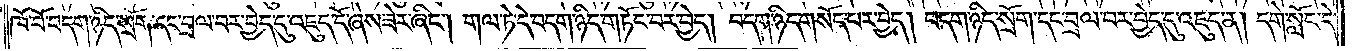ཁོ་བོ་བདག་ཉིད་སྲོག་དང་བྲལ་བར་བྱེད་དུ་འཇུད་དོ་ཞེས་ཟེར་ཞིང༌། གལ་ཏེ་དེ་བདག་ཉིད་གཏོང་བར་བྱེད། བདག་ཉིད་གསོད་པར་བྱེད། བདག་ཉིད་སྲོག་དང་བྲལ་བར་བྱེད་དུ་འཇུད་ན། དགེ་སློང་དེ་
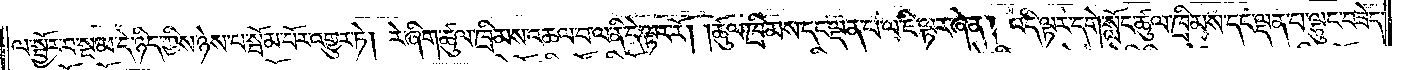ལ་སྦྱོར་བ་སྔ་མ་དེ་ཉིད་ཀྱིས་ཉེས་པ་སྦོམ་པོར་འགྱུར་ཏེ། རེ་ཞིག་ཚུལ་ཁྲིམས་འཆལ་བ་ལ་ནི་དེ་ལྟར་རོ། །ཚུལ་ཁྲིམས་དང་ལྡན་པ་ལ་ཇི་ལྟར་ཞེ་ན། འདི་ལྟར་དགེ་སློང་ཚུལ་ཁྲིམས་དང་ལྡན་པ་ལྷུང་བཟེད་
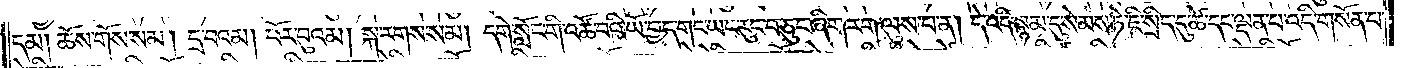དམ། ཆོས་གོས་སམ། དྲ་བའམ། ཕོར་བུའམ། སྐ་རགས་སམ། དགེ་སློང་གི་འཚོ་བའི་ཡོ་བྱད་གང་ཡང་རུང་བ་ཅུང་ཞིག་རག་ལུས་པ་ན། དེ་འདི་སྙམ་དུ་སེམས་ཏེ་ཇི་སྲིད་དུ་ཚེ་དང་ལྡན་པ་འདི་གསོན་པ་
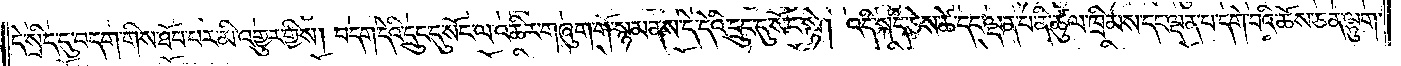དེ་སྲིད་དུ་བདག་གིས་ཐོབ་པར་མི་འགྱུར་གྱིས། བདག་དེའི་དྲུང་དུ་སོང་ལ་འཆིར་གཞུག་གོ་སྙམ་ནས་དེ་དེའི་དྲུང་དུ་སོང་སྟེ། འདི་སྐད་ཅེས་ཚེ་དང་ལྡན་པ་ནི་ཚུལ་ཁྲིམས་དང་ལྡན་པ་དགེ་བའི་ཆོས་ཅན་ལྷུག་
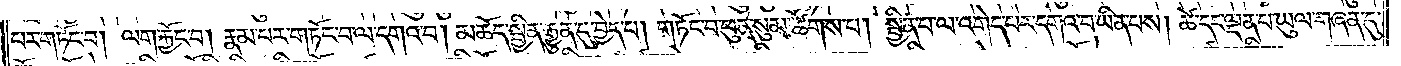པར་གཏོང་བ། ལག་རྐྱོང་བ། རྣམ་པར་གཏོང་བ་ལ་དགའ་བ། མཆོད་སྦྱིན་རྒྱུན་དུ་བྱེད་པ། གཏོང་བ་ཕུན་སུམ་ཚོགས་པ། སྦྱིན་པ་ལ་འགེད་པར་དགའ་བ་ཡིན་པས། ཚེ་དང་ལྡན་པ་ཡུལ་གཞན་དུ་
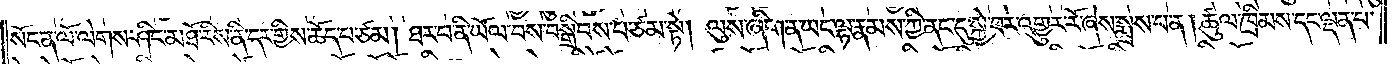སོང་ན་ལོ་ལེགས་ཤིང་མཐོ་རིས་ནི་དར་གྱིས་ཆོད་པ་ཙམ། ཐར་པ་ནི་ཡོལ་བས་བསྒྲིབས་པ་ཙམ་སྟེ། ལུས་ཞིག་ན་ཡང་ལྷ་རྣམས་ཀྱི་ནང་དུ་སྐྱེ་བར་འགྱུར་རོ་ཞེས་སྨྲས་པ་ན། ཚུལ་ཁྲིམས་དང་ལྡན་པ་
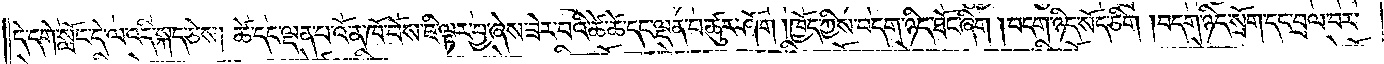དེ་དགེ་སློང་དེ་ལ་འདི་སྐད་ཅེས། ཚེ་དང་ལྡན་པ་འོ་ན་ཁོ་བོས་ཇི་ལྟར་བྱ་ཞེས་ཟེར་བའི་ཚེ་ཚེ་དང་ལྡན་པ་ཚུར་ཤོག །ཁྱོད་ཀྱིས་བདག་ཉིད་ཐོང་ཞིག །བདག་ཉིད་སོག་ཅིག །བདག་ཉིད་སྲོག་དང་བྲལ་བར་
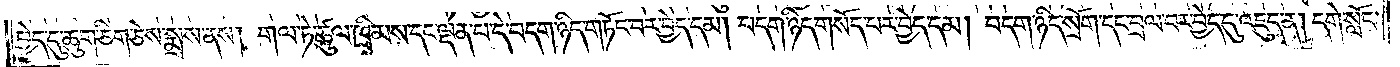བྱེད་དུ་ཆུག་ཅིག་ཅེས་སྨྲས་ནས། གལ་ཏེ་ཚུལ་ཁྲིམས་དང་ལྡན་པ་དེ་བདག་ཉིད་གཏོང་བར་བྱེད་དམ། བདག་ཉིད་གསོད་པར་བྱེད་དམ། བདག་ཉིད་སྲོག་དང་བྲལ་བར་བྱེད་དུ་འཇུད་ན། དགེ་སློང་
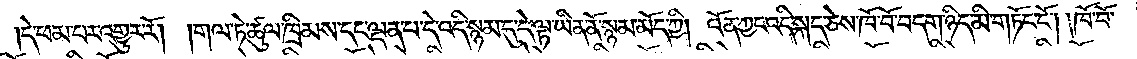དེ་ཕམ་པར་འགྱུར་རོ། །གལ་ཏེ་ཚུལ་ཁྲིམས་དང་ལྡན་པ་དེ་འདི་སྙམ་དུ་དེ་ལྟ་ཡིན་ནོ་སྙམ་མོད་ཀྱི། འོན་ཀྱང་འདི་སྐད་ཅེས་ཁོ་བོ་བདག་ཉིད་མི་གཏོང་ངོ༌། །ཁོ་བོ་
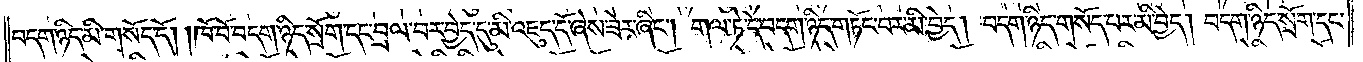བདག་ཉིད་མི་གསོད་དོ། །ཁོ་བོ་བདག་ཉིད་སྲོག་དང་བྲལ་བར་བྱེད་དུ་མི་འཇུད་དོ་ཞེས་ཟེར་ཞིང༌། གལ་ཏེ་དེ་བདག་ཉིད་གཏོང་བར་མི་བྱེད། བདག་ཉིད་གསོད་པར་མི་བྱེད། བདག་ཉིད་སྲོག་དང་
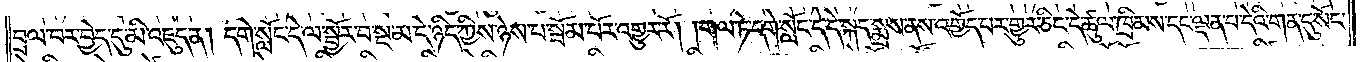བྲལ་བར་བྱེད་དུ་མི་འཇུད་ན། དགེ་སློང་དེ་ལ་སྦྱོར་བ་སྔ་མ་དེ་ཉིད་ཀྱིས་ཉེས་པ་སྦོམ་པོར་འགྱུར་རོ། །གལ་ཏེ་དགེ་སློང་དེ་དེ་སྐད་སྨྲས་ནས་འགྱོད་པར་གྱུར་ཅིང་དེ་ཚུལ་ཁྲིམས་དང་ལྡན་པ་དེའི་གན་དུ་སོང་
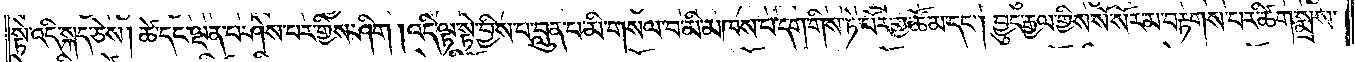སྟེ་འདི་སྐད་ཅེས། ཚེ་དང་ལྡན་པ་ཤེས་པར་གྱིས་ཤིག །འདི་ལྟ་སྟེ་བྱིས་པ་བླུན་པ་མི་གསལ་བ་མི་མཁས་པ་དག་གིས་ཏེ་པོར་གྱ་ཚོམ་དང༌། བྱུང་རྒྱལ་གྱིས་སོ་སོར་མ་བརྟགས་པར་ཚིག་སྨྲས་
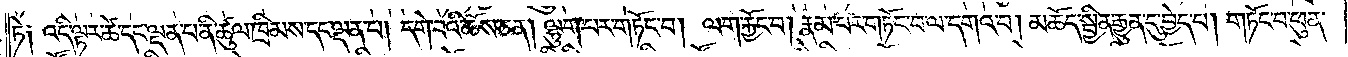ཏེ༑ འདི་ལྟར་ཚེ་དང་ལྡན་པ་ནི་ཚུལ་ཁྲིམས་དང་ལྡན་པ། དགེ་བའི་ཆོས་ཅན། ལྷུག་པར་གཏོང་བ། ལག་རྐྱོང་བ། རྣམ་པར་གཏོང་བ་ལ་དགའ་བ། མཆོད་སྦྱིན་རྒྱུན་དུ་བྱེད་པ། གཏོང་བ་ཕུན་
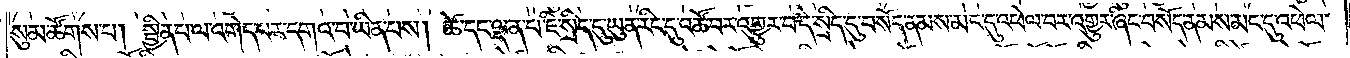སུམ་ཚོགས་པ། སྦྱིན་པ་ལ་འགེད་པར་དགའ་བ་ཡིན་པས། ཚེ་དང་ལྡན་པ་ཇི་སྲིད་དུ་ཡུན་རིང་དུ་འཚོ་བར་འགྱུར་བ་དེ་སྲིད་དུ་བསོད་ནམས་མང་དུ་འཕེལ་བར་འགྱུར་ཞིང་བསོད་ནམས་མང་དུ་འཕེལ་
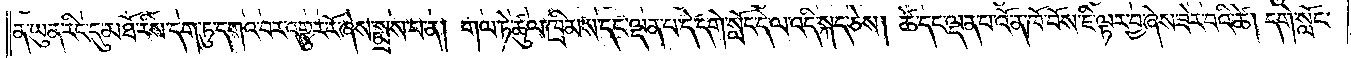ན་ཡུན་རིང་དུ་མཐོ་རིས་དག་ཏུ་དགའ་བར་འགྱུར་རོ་ཞེས་སྨྲས་པ་ན། གལ་ཏེ་ཚུལ་ཁྲིམས་དང་ལྡན་པ་དེ་དགེ་སློང་དེ་ལ་འདི་སྐད་ཅེས། ཚེ་དང་ལྡན་པ་འོ་ན་ཁོ་བོས་ཇི་ལྟར་བྱ་ཞེས་ཟེར་བའི་ཚེ། དགེ་སློང་
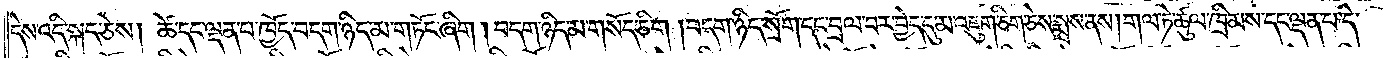དེས་འདི་སྐད་ཅེས། ཚེ་དང་ལྡན་པ་ཁྱོད་བདག་ཉིད་མ་གཏོང་ཞིག །བདག་ཉིད་མ་གསོད་ཅིག །བདག་ཉིད་སྲོག་དང་བྲལ་བར་བྱེད་དུ་མ་འཇུག་ཅིག་ཅེས་སྨྲས་ནས། གལ་ཏེ་ཚུལ་ཁྲིམས་དང་ལྡན་པ་དེ་
